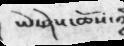ཡེ་ཤེས་ཆོས་
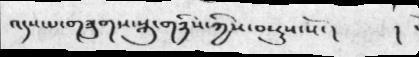འདས་པ་གཟུགས་སྐུ་གཉིས་ཀྱིས་བསྡུས་སོ་།  །
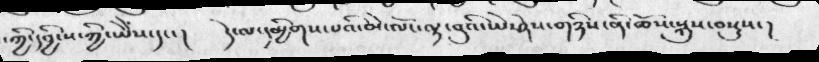་ཀྱི་དབྱིངས་ཀྱི་ཡཻས་དང་།   དེ་ལ་དམྱིགས་པའི་མེ་ལོང་ལྟ་བུའི་ཡེ་ཤེས་གཉིས་ནི་ཆོས་སྐུས་བསྡུས་།
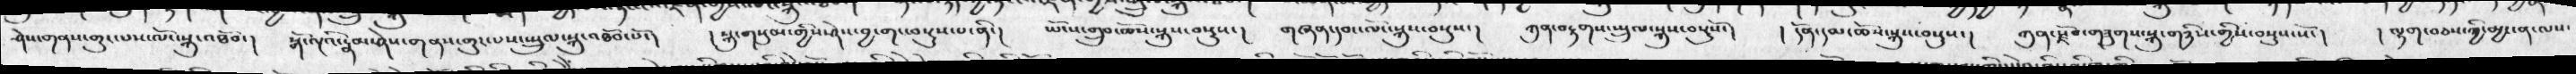ཤེས་གནས་གྱུར་པས་ལོང་སྐུ་འཐོབ་།   སྒོ་ལྔའི་རྣམ་ཤེས་གནས་གྱུར་པས་སྤྲུལ་སྐུ་འཐོབ་པོ་།    ། སྐུ་གསུམ་གྱིས་ཤེས་བྱ་གང་བསྡུས་པ་ནི་།  ཡོངས་གྲུབ་ཆོས་སྐུ་བསྡུས་།   གཞན་དབང་ལོང་སྐུས་བསྡུས་།  ཀུན་བརྟགས་སྤྲུལ་སྐུས་བསྡུསོ་།   ། དོན་དམ་ཆོས་སྐུས་བསྡུས་།   ཀུན་རྫོབ་གཟུགས་སྐུ་གཉིས་གྱིས་བསྡུས་སོ་།   ། ལྷག་བཅས་ཀྱི་མྱ་ངན་ལས་
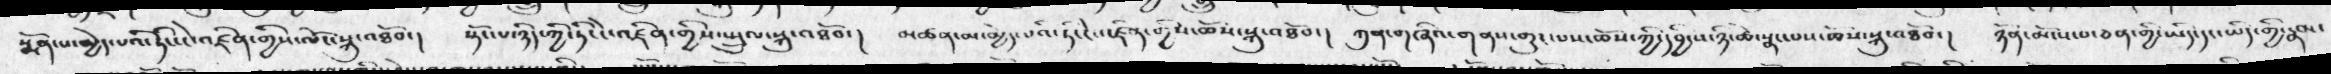སྨོན་པ་མྱེད་པའི་ཏིང་ངེ་འཛིན་གྱིས་ལོང་སྐུ་འཐོབ་།  སྟོང་པ་ཉིད་ཀྱི་ཏིང་ངེ་འཛིན་གྱིས་སྤྲུལ་སྐུ་འཐོབ་།  མཚན་མ་མྱེད་པའི་ཏི་ངེ་འཛིན་གྱིས་ཆོས་སྐུ་འཐོབ་།  ཀུན་གཞིའ་གནས་གྱུར་པས་ཆོས་ཀྱི་དབྱིངས་ཉི་ཚེ་སྣང་པས་ཆོས་སྐུ་འཐོབ་།  ཉོན་མོངས་པ་ཅན་གྱི་ཡིད་དང་ཡིད་གྱི་རྣམ་
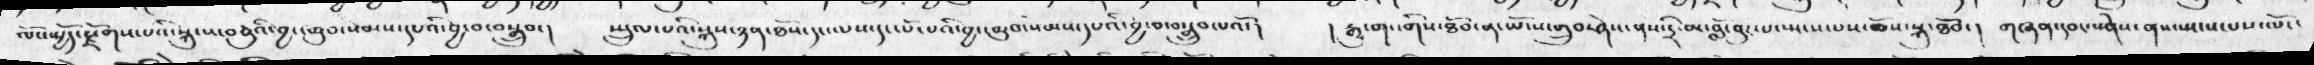ལོང་ཡྱོད་རྗོགས་པའི་སྐུ་ས་བཅུའི་བྱང་ཆུབ་སེམས་དཔའི་བྱ་བ་བསྒྲུབ་།    ཡྲུལ་པའི་སྐུ་ཉན་ཐོས་དང་ལས་དང་པོ་པའི་བྱང་ཆུབ་སེམས་དཔའི་བྱ་བ་བསྒྲུབ་པའོ་།  ། རྒྱུ་གང་གིས་ཐོབ་ན་ཡོངས་གྲུབ་ཤེས་ནས་དྲི་མ་བློ་བུར་པ་སྤངས་པས་ཆོས་སྐུ་ཐོབ་།   གཞན་དབང་པཤེས་ནས་སྤང་པས་ལོ་།
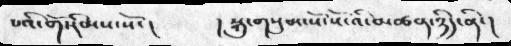པའི་གོ་རིམས་སོ་ །     ། སྐུ་གསུམ་སོ་སོ་འི་མཚན་ཉིད་ནི་།
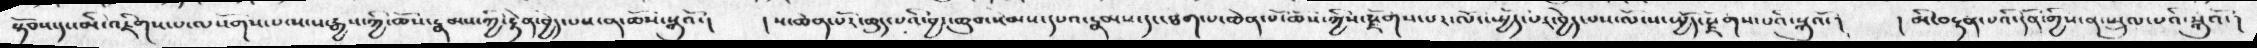སྟོབས་དང་མི་འཇིགས་པ་ལསོགས་པ་སངས་རྒྱས་ཀྱི་ཆོས་རྣམས་ཀྱི་རྟེན་བྱེད་པས་ན་ཆོས་སྐུའོ་།   ། ས་ཆེན་པོར་ཆུད་པའི་བྱང་ཆུབ་སེམས་དཔའ་རྣམས་དང་ཐག་པ་ཆེན་པོ་ཆོས་ཀྱིས་རྗོགས་པར་ལོང་ཡྱོད་པར་བྱེད་པས་ལོངས་ཡྱོད་རྗོགས་པའི་སྐུའོ་ །    ། མིང་བརྟན་པའི་དོན་གྱིས་ན་ཡྲུལ་པའི་སྐུའོ་ །
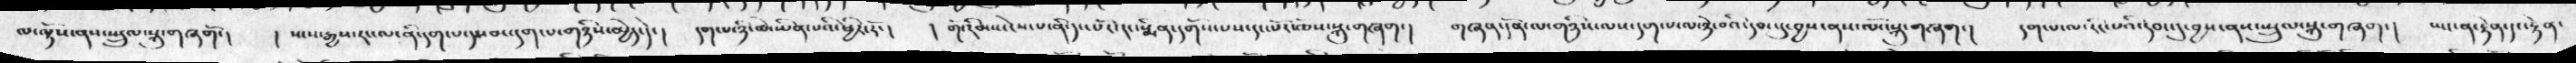ལ་ལྟོས་ནས་ཡྲུལ་སྐུ་གཞགོ་།    ། སངས་རྒྱས་རང་ལ་ནི་དག་པ་དང་མ་དག་པ་གཉིས་མྱེད་དེ་།   དག་པ་ཉི་ཚེ་ཡིན་པའི་ཕྱིར་རོ་།   ། གོ་རིམས་ངེས་པ་ནི་དང་པོར་དང་སྨིན་དགོས་པས་དང་པོར་ཆོས་སྐུ་གཞག་།    གཞན་དོན་ལ་གཉིས་ལས་དག་པ་ལ་ཉེ་བའི་དབང་དུ་བྱས་ནས་ལོང་སྐུ་གཞག་།     དག་པ་ལ་རིང་པའི་དབང་དུ་བྱས་ནས་ཡྲུལ་སྐུ་གཞག་།   ཡང་ན་རྟེན་དང་རྟེན་
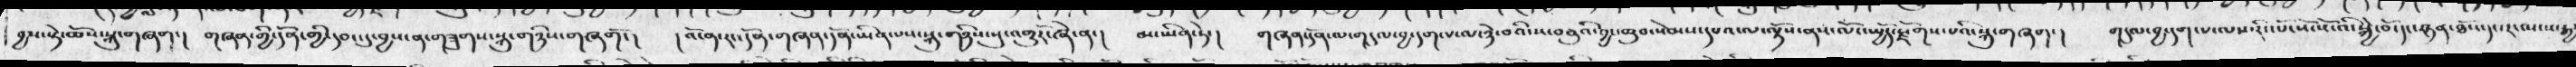བྱས་སྟེ་ཆོས་སྐུ་གཞག་།   གཞན་གྱི་དོན་གྱི་དབང་དུ་བྱས་ན་གཟུགས་སྐུ་གཉིས་གཞགོ་།   ། འོ་ན་རང་དོན་གཞན་དོན་ཡིན་པས་སྐུ་གཉིས་སུ་འགྱུརོ་ཞེ་ན་།   མ་ཡིན་ཏེ་།   གཞན་དོན་ལ་གདུལ་བྱ་དག་པ་ལ་ཉེ་བའི་ས་བཅུའི་བྱང་ཆུབ་སེམས་དཔའ་ལ་ལྟོས་ནས་ལོངས་སྤྱོད་རྗོགས་པའི་སྐུ་གཞག་།   གདུལ་བྱ་དག་པ་ལས་རིང་པོ་སོ་སོའི་སྐྱེ་བ་དང་ཉན་ཐོས་དང་རང་སངས་རྒྱ
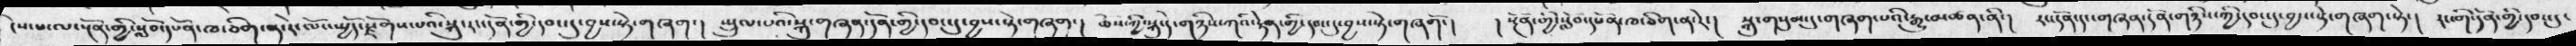ངེས་པ་ལ་སྔོན་གྱི་སློབ་དཔོན་ཁ་ཅིག་ན་རེ་ལོངས་སྤྱོད་རྫོགས་པའི་སྐུ་རང་དོན་གྱི་དབང་དུ་བྱས་སྟེ་གཞག་།  སྤྲུལ་པའི་སྐུ་གཞན་དོན་གྱི་དབང་དུ་བྱས་ཏེ་གཞག་།  ཆོས་ཀྱི་སྐུ་དེ་གཉིས་ཀའི་རྟེན་གྱི་དབང་དུ་བྱས་སྟེ་གཞགོ་།  །སྔོན་གྱི་སློབ་དཔོན་ཁ་ཅིག་ན་རེ་།  སྐུ་གསུམ་དུ་གཞག་པའི་རྒྱུ་མཚན་ནི་། རང་དོན་དང་གཞན་དོན་གཉིས་ཀྱི་དབང་དུ་བྱས་སྟེ་གཞག་སྟེ་། རང་གི་དོན་གྱི་དབང་དུ་
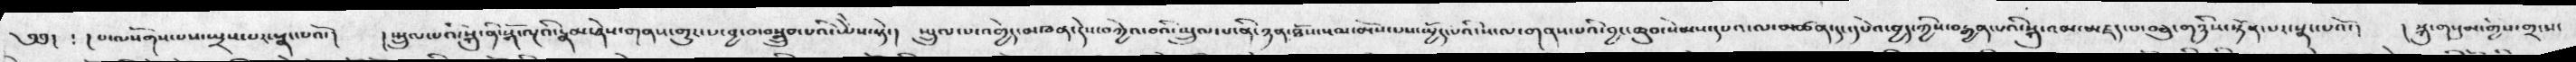༄༅། ༴ །པ་ལསོགས་པས་སྤྲས་པར་སྣང་པའོ་།  །སྤྲུལ་པའི་སྐུ་ནི་སྒོ་ལྔའི་རྣམ་ཤེས་གནས་གྱུར་པ་བྱ་བ་བསྒྲུབ་པའི་ཡཻས་སྟེ་།  སྤྲུལ་བ་འགྱེད་མཁན་དེས་བཀྱེའ་བའི་སྤྲུལ་པ་ནི་ཉན་ཐོས་སམ་མོས་པས་སྤྱོད་པའི་ས་ལ་གནས་པའི་བྱང་ཆུབ་སེམས་དཔའ་ལ་མཚན་དང་དཔེའ་བྱད་ཀྱིས་བརྒྱན་པའི་སྐུ་འམ་མཛད་པ་བཅུ་གཉིས་སྟོན་པར་སྣང་པའོ་།  །སྐུ་གསུམ་གྱིས་གྲངས་
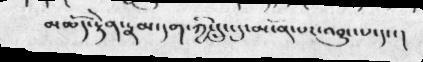མཆདོ་རྟེན་རྣམ་དག་ཀྱི་དྲུང་དུ་མངོན་པར་འབྱུང་པ་དང་།
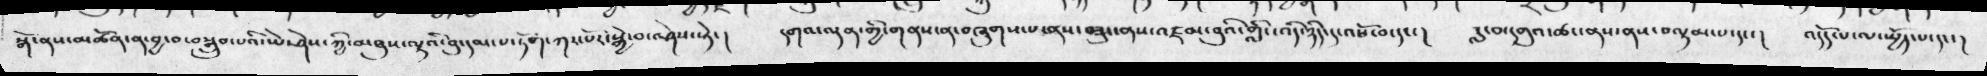སྒོ་ནས་མཚོན་ན་བྱ་བ་བསྒྲུབ་པའི་ཡེ་ཤེས་ཀྱི་མཐུས་ལྟའི་བུ་དམ་པ་ཏོག་ཀར་པོར་སྐྱེ་བ་ཤེས་ཏེ་།  དགའ་ལྡན་གྱི་གནས་ན་བཞུགས་པ་ནས་བཟུང་ནས་འཛམ་བུའི་གླིང་འདི་ཉིད་དང་འཕོ་བ་དང་།  རླ་བ་དགུའ་ཆང་ནས་ནས་བལྟམ་པ་དང་།  འདོད་པ་ལ་སྤྱོད་པ་དང་།
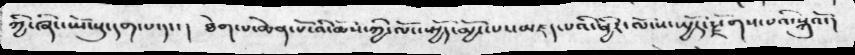ཀྱི་ཞིང་ཡོངསུ་དག་པ་དང་།   ཐེག་པ་ཆེན་པོ་འི་ཆོས་ཀྱི་ལོང་སྤྱོད་མྱོང་པར་མཛད་པའི་ཕྱིར་ལོངས་སྤྱོད་རྫོགས་པའི་སྐུའོ་།
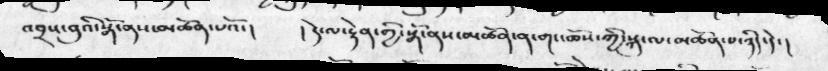འབྲས་བུའི་སྒོ་ནས་མཚོན་པའོ་།   །དེ་ལ་རྟེན་གྱི་སྒོ་ནས་མཚོན་ན་གང་ཆོས་ཀྱི་སྐུ་ལ་མཚོན་པ་ཉིད་དེ་།
